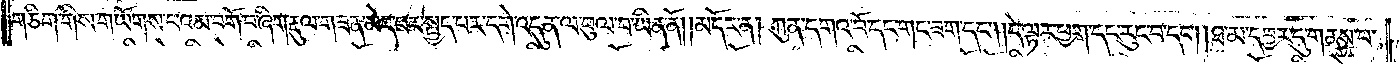གཅིག་གིས་གཡོགས་པའམ་བགོ་བ་ཞིག་རྡུལ་གཟན་མེད་པར་སྤྱད་པར་དགེ་འདུན་ལ་ཕུལ་བ་ཡིན་ནོ། །མདོར་ན། ཀུན་དགའ་བོ་དང་གང་ཟག་དང༌། །དེ་ལྟར་ཕྱག་དང་རུང་བ་དང༌། །ཐ་མ་དབྱར་དུ་གནས་པ་
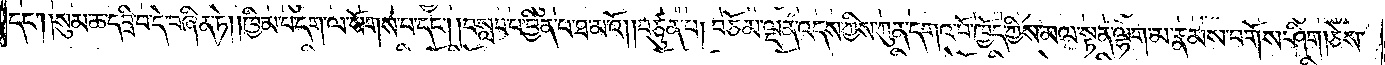དང༌། །སུམ་ཆ་དབྲི་བ་དེ་བཞིན་ཏེ། །ཁྱིམ་པ་དག་ལ་སོགས་པ་དང༌། །བསླབ་པ་བྱིན་པ་ཐ་མ་འོ། །བཙུན་པ། བཅོམ་ལྡན་འདས་ཀྱིས་ཀུན་དགའ་བོ་ཁྱོད་ཀྱིས་མལ་སྟན་ལྷག་མ་རྣམས་བགོས་ཤིག །ཅེས་
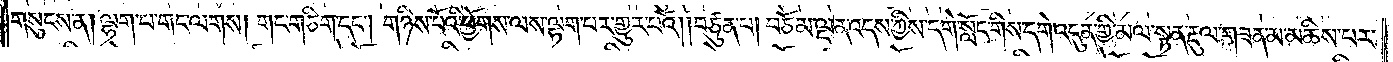གསུངས་ན། ལྷག་པ་གང་ལགས། གང་གཅིག་དང༌། གཉིས་པོའི་ཕྱོགས་ལས་ལྷག་པར་གྱུར་པའོ། །བཙུན་པ། བཅོམ་ལྡན་འདས་ཀྱིས་དགེ་སློང་གིས་དགེ་འདུན་གྱི་མལ་སྟན་རྡུལ་གཟན་མ་མཆིས་པར་
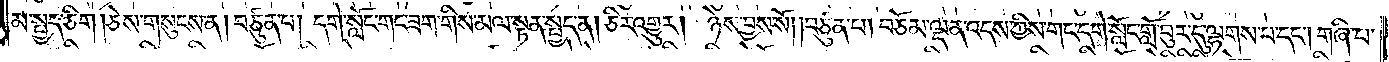མ་སྤྱད་ཅིག །ཅེས་གསུངས་ན། བཙུན་པ། དགེ་སློང་གང་ཟག་གིས་མལ་སྟན་སྤྱད་ན། ཅིར་འགྱུར། ཉེས་བྱས་སོ། །བཙུན་པ། བཅོམ་ལྡན་འདས་ཀྱིས་གང་དགེ་སློང་གློ་བུར་དུ་ལྷགས་པ་དང༌། གཞི་པ་
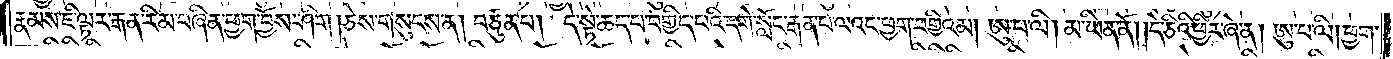རྣམས་ཇི་ལྟར་རྒན་རིམ་བཞིན་ཕྱག་བྱོས་ཤིག །ཅེས་གསུངས་ན། བཙུན་པ། དེ་སྟེ་ཆད་པ་བགྱིད་པའི་དགེ་སློང་རྒན་པ་ལའང་ཕྱག་བགྱིའམ། ཨུ་པ་ལི། མ་ཡིན་ནོ། །དེ་ཅིའི་ཕྱིར་ཞེ་ན། ཨུ་པ་ལི། ཕྱག་
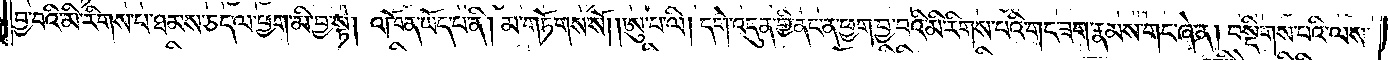བྱ་བའི་མི་རིགས་པ་ཐམས་ཅད་ལ་ཕྱག་མི་བྱ་སྟེ། འཁོན་ཡོད་པ་ནི། མ་གཏོགས་སོ། །ཨུ་པ་ལི། དགེ་འདུན་གྱི་ནང་ན་ཕྱག་བྱ་བའི་མི་རིགས་པའི་གང་ཟག་རྣམས་གང་ཞེ་ན། བསྡིགས་པའི་ལས་
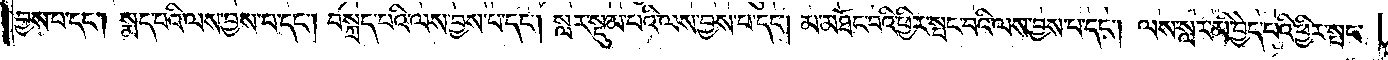བྱས་པ་དང༌། སྨད་པའི་ལས་བྱས་པ་དང༌། བསྐྲད་པའི་ལས་བྱས་པ་དང༌། སླར་སྡུམ་པའི་ལས་བྱས་པ་དང༌། མ་མཐོང་བའི་ཕྱིར་སྤང་བའི་ལས་བྱས་པ་དང༌། ལས་སླར་མི་བྱེད་པའི་ཕྱིར་སྤང་
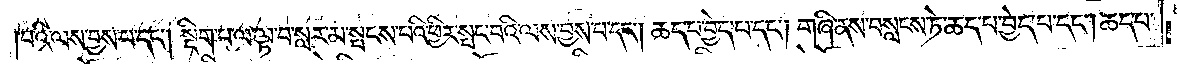བའི་ལས་བྱས་པ་དང༌། སྡིག་པ་ལ་ལྟ་བ་སླར་མ་སྦངས་པའི་ཕྱིར་སྤང་བའི་ལས་བྱས་པ་དང༌། ཆད་པ་བྱེད་པ་དང༌། གཞི་ནས་བསླངས་ཏེ་ཆད་པ་བྱེད་པ་དང༌། ཆད་པ་
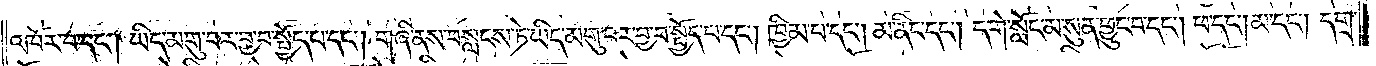འཁོར་བ་དང༌། ཡིད་མགུ་བར་བྱ་བ་སྤྱོད་པ་དང༌། གཞི་ནས་བསླངས་ཏེ་ཡིད་མགུ་བར་བྱ་བ་སྤྱོད་པ་དང༌། ཁྱིམ་པ་དང༌། མ་ནིང་དང༌། དགེ་སློང་མ་སུན་ཕྱུང་བ་དང༌། ཕ་དང༌། མ་དང༌། དགྲ་
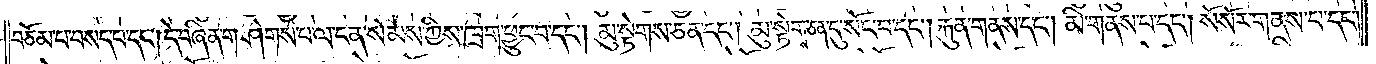བཅོམ་པ་བསད་པ་དང༌། དེ་བཞིན་གཤེགས་པ་ལ་ངན་སེམས་ཀྱིས་ཁྲག་ཕྱུང་བ་དང༌། མུ་སྟེགས་ཅན་དང༌། མུ་སྟེགས་ཅན་དུ་སོང་བ་དང༌། རྐུན་གནས་དང༌། མི་གནས་པ་དང༌། སོ་སོར་གནས་པ་དང༌།
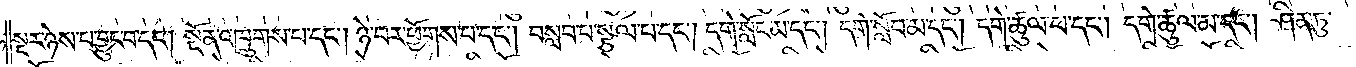སྔར་ཉེས་པ་བྱུང་བ་དང༌། སྔོན་འཁྲུགས་པ་དང༌། ཉེ་བར་ཕྱོགས་པ་དང༌། བསླབ་པ་སྩལ་པ་དང༌། དགེ་སློང་མ་དང༌། དགེ་སློབ་མ་དང༌། དགེ་ཚུལ་ཕ་དང༌། དགེ་ཚུལ་མ་དང༌། ཤིན་ཏུ་
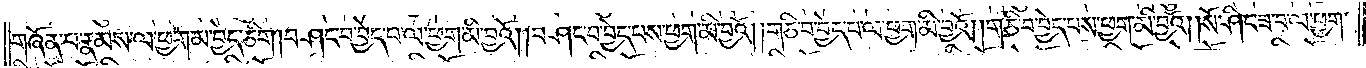གཞོན་པ་རྣམས་ལ་ཕྱག་མ་བྱེད་ཅིག །བཤང་བ་བྱེད་པ་ལ་ཕྱག་མི་བྱའོ། །བཤང་བ་བྱེད་པས་ཕྱག་མི་བྱའོ། །གཅི་བ་བྱེད་པ་ལ་ཕྱག་མི་བྱའོ། །གཅི་བ་བྱེད་པས་ཕྱག་མི་བྱའོ། །སོ་ཤིང་ཟ་བ་ལ་ཕྱག་
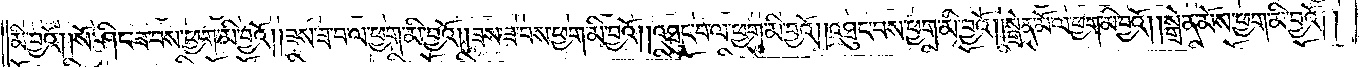མི་བྱའོ། །སོ་ཤིང་ཟ་བས་ཕྱག་མི་བྱའོ། །ཟས་ཟ་བ་ལ་ཕྱག་མི་བྱའོ། །ཟས་ཟ་བས་ཕྱག་མི་བྱའོ། །འཐུང་བ་ལ་ཕྱག་མི་བྱའོ། །འཐུང་བས་ཕྱག་མི་བྱའོ། །སྒྲེན་མོ་ལ་ཕྱག་མི་བྱའོ། །སྒྲེན་མོས་ཕྱག་མི་བྱའོ༎
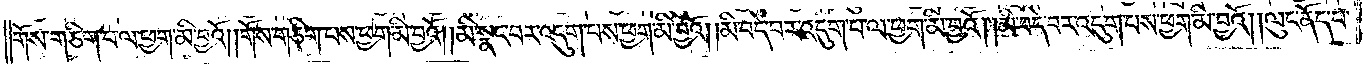གོས་གཅིག་པ་ལ་ཕྱག་མི་བྱའོ། །གོས་གཅིག་པས་ཕྱག་མི་བྱའོ། །མི་སྣང་བར་འདུག་པས་ཕྱག་མི་བྱའོ། །མི་བདེ་བར་འདུག་པ་ལ་ཕྱག་མི་བྱའོ། །མི་བདེ་བར་འདུག་པས་ཕྱག་མི་བྱའོ། །ལུང་ནོད་པ་
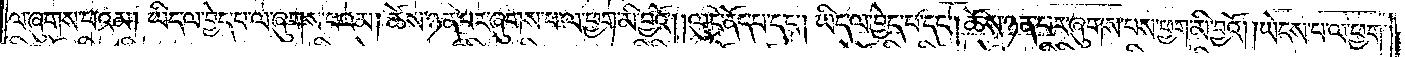ལ་ཞུགས་པའམ། ཡིད་ལ་བྱེད་པ་ལ་ཞུགས་པའམ། ཆོས་ཉན་པར་ཞུགས་པ་ལ་ཕྱག་མི་བྱའོ། །ལུང་ནོད་པ་དང༌། ཡིད་ལ་བྱེད་པ་དང༌། ཆོས་ཉན་པར་ཞུགས་པས་ཕྱག་མི་བྱའོ། །ཡེངས་པ་ལ་ཕྱག་
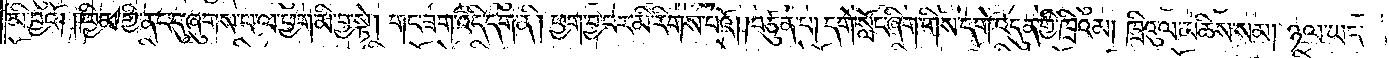མི་བྱའོ། །ཁྱིམ་གྱི་ནང་དུ་ཞུགས་པ་ལ་ཕྱག་མི་བྱ་སྟེ། གང་ཟག་འདི་དག་ནི། ཕྱག་བྱ་བར་མི་རིགས་པའོ། །བཙུན་པ། དགེ་སློང་ཞིག་གིས་དགེ་འདུན་གྱི་ཁྲིའམ། ཁྲིའུ་ལ་མཆིས་སམ། ཉལ་ཡང་
